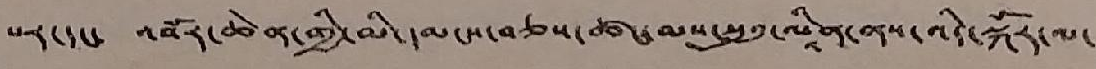པར་དང་ འབོར་ཆེན་གྱི་མི་དམངས་བཅས་ཚང་མས་སུའུ་ལཱིན་ནས་འདི་སྐོར་ལ་
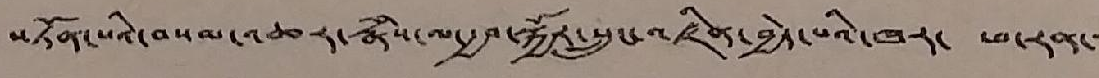བཏོན་པའི་བསམ་འཆར་རྣཾས་ལ་རྒྱབ་སྐྱོར་སྲུང་འཛིན་བྱེད་པའི་ཁར་ ཕ་རན་
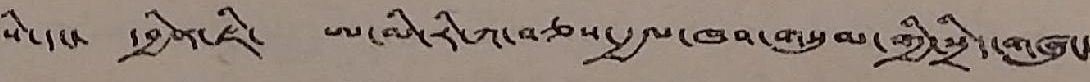སི་དང་ དབྱིན་ཇི་ ཨ་མི་རི་ཀ་བཅས་རྒྱལ་ཁབ་གསུམ་གྱི་སྲིད་གཞུང་
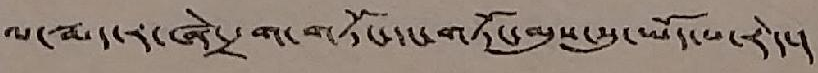ལ་སྨད་ར་ཞེ་དྲག་གཏོང་དང་གཏོང་མུས་སུ་ཡོད་པ་རེད་།
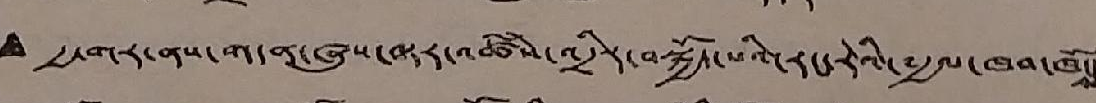• རྒྱ་གར་ནས་གདན་ཞུས་ལྟར་འཚཾས་འདྲིར་བསྐྱོད་པའི་རང་རེའི་༸རྒྱལ་ཁབ་ཁོངས་
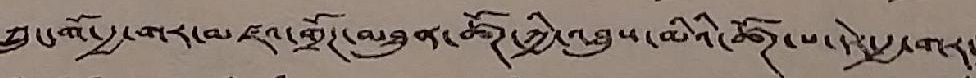ཀྲུང་གོ་རྒྱ་གར་མཛའ་གྲོཊ་མཐུན་ཚོཊ་ཀྱི་འཐུས་མིའི་ཚོཊ་པ་དེར་རྒྱ་གར་
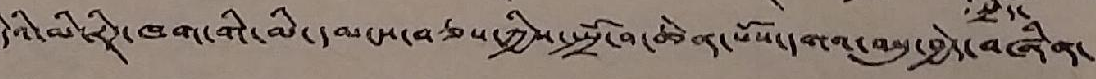དེའི་མི་རིཊ་ཁག་གི་མི་དམངས་བཅས་ཀྱིས་སྤྲོ་བ་ཆེན་པོས་དགའ་བསུ་བྱེད་བཞིན་
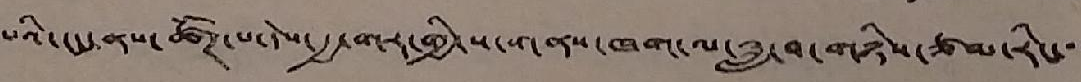པའི་ནང་ནས་ཚོཊ་པ་དེས་རྒྱ་གར་གྱི་ས་གནས་ཁག་ལ་ཟླ་བ་གཉིས་ཙམ་རིང་་་
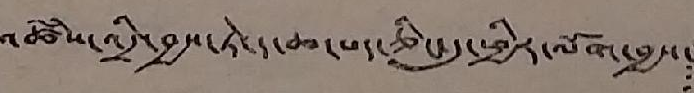འཚཾས་འདྲི་བྱས་ཏེ་ད་ཆ་པད་ཅིང་དུ་ཕྱིར་ལོག་བྱ་
